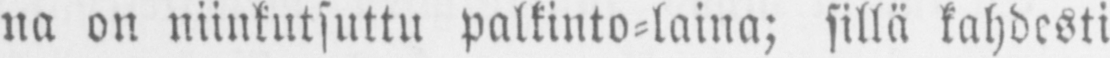na on niinkutsuttu palkinto-laina; sillä kahdesti
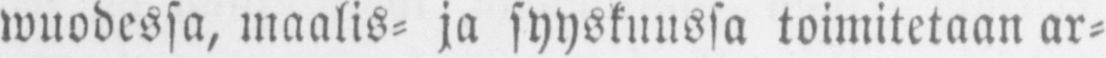wuodessa, maalis- ja syyskuussa toimitetaan ar-
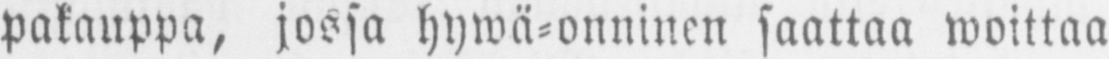pakauppa, jossa hywä-onninen saattaa woittaa
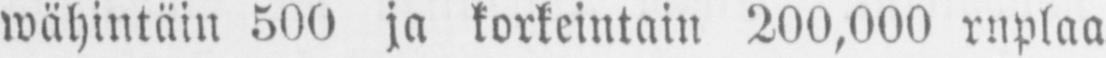wähintäin 500 ja korkeintain 200,000 ruplaa
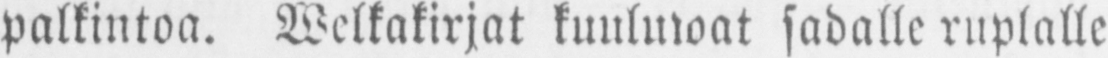palkintoa. Welkakirjat kuuluwat sadalle ruplalle
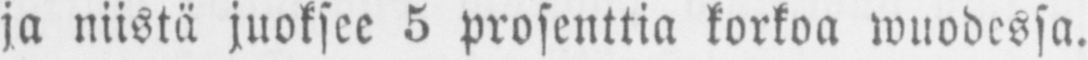ja niistä juoksee 5 prosenttia korkoa wuodessa.
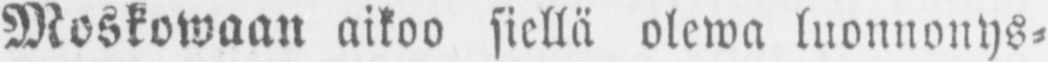Moskowaan aikoo siellä olewa luonnonys-
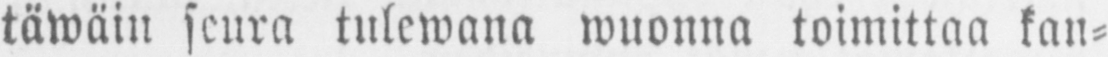täwäin seura tulewana wuonna toimittaa kan-
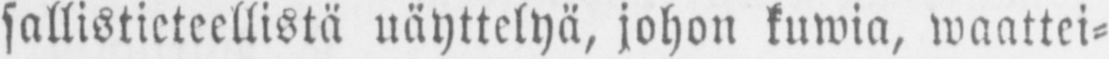sallistieteellistä uäyttelyä, johon kuwia, waattei-
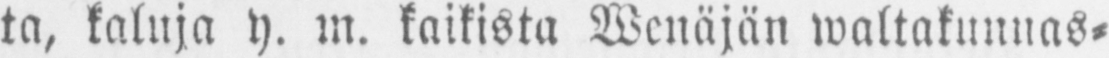ta, kaluja y. m. kaikista Wenäjän waltakunnas-
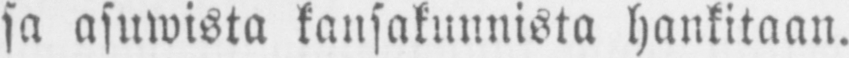sa asuwista kansakunnista hankitaan.
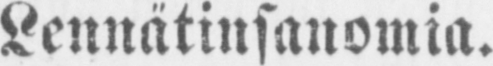Lennätinsanomia.
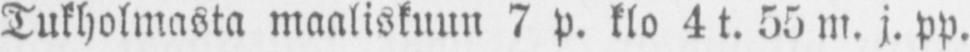Tukholmasta maaliskuun 7 p. klo 4 t. 55 m. j. pp.
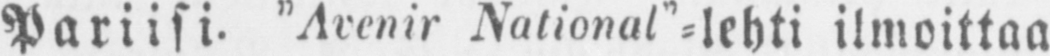Pariisi- "Avenir National"- lehti ilmoittaa
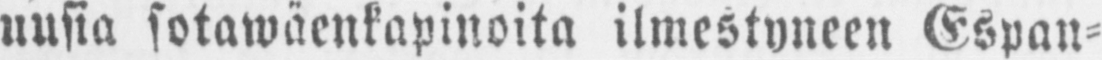uusia sotawäenkapinoita ilmestyneen Espan-
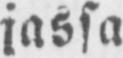jassa
